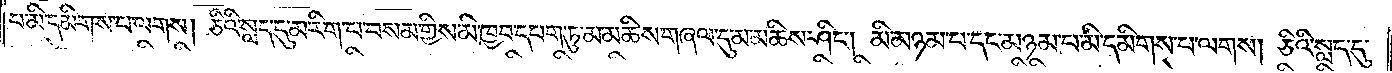པ་མི་དམིགས་པ་ལགས། ཅིའི་སླད་དུ་མ་རིག་པ་བསམ་གྱིས་མི་ཁྱབ་དཔག་ཏུ་མ་མཆིས་གཞལ་དུ་མ་མཆིས་ཤིང༌། མི་མཉམ་པ་དང་མཉམ་པ་མི་དམིགས་པ་ལགས། ཅིའི་སླད་དུ་
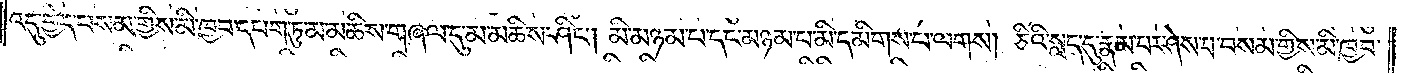འདུ་བྱེད་བསམ་གྱིས་མི་ཁྱབ་དཔག་ཏུ་མ་མཆིས་གཞལ་དུ་མ་མཆིས་ཤིང༌། མི་མཉམ་པ་དང་མཉམ་པ་མི་དམིགས་པ་ལགས། ཅིའི་སླད་དུ་རྣམ་པར་ཤེས་པ་བསམ་གྱིས་མི་ཁྱབ་
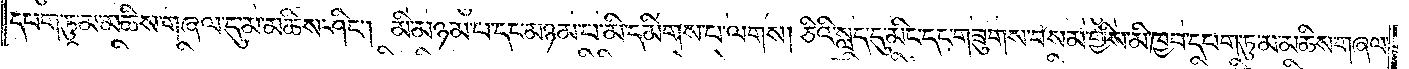དཔག་ཏུ་མ་མཆིས་གཞལ་དུ་མ་མཆིས་ཤིང༌། མི་མཉམ་པ་དང་མཉམ་པ་མི་དམིགས་པ་ལགས། ཅིའི་སླད་དུ་མིང་དང་གཟུགས་བསམ་གྱིས་མི་ཁྱབ་དཔག་ཏུ་མ་མཆིས་གཞལ་
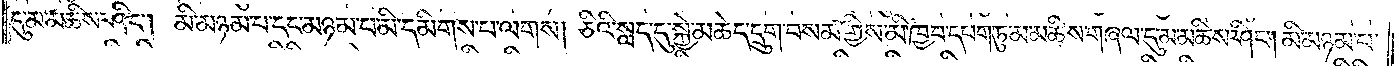དུ་མ་མཆིས་ཤིང༌། མི་མཉམ་པ་དང་མཉམ་པ་མི་དམིགས་པ་ལགས། ཅིའི་སླད་དུ་སྐྱེ་མཆེད་དྲུག་བསམ་གྱིས་མི་ཁྱབ་དཔག་ཏུ་མ་མཆིས་གཞལ་དུ་མ་མཆིས་ཤིང༌། མི་མཉམ་པ་
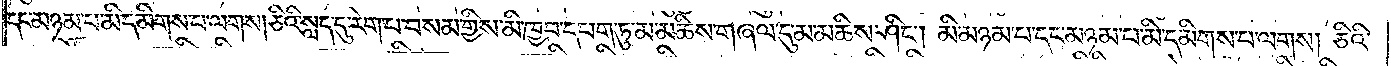དང་མཉམ་པ་མི་དམིགས་པ་ལགས། ཅིའི་སླད་དུ་རེག་པ་བསམ་གྱིས་མི་ཁྱབ་དཔག་ཏུ་མ་མཆིས་གཞལ་དུ་མ་མཆིས་ཤིང༌། མི་མཉམ་པ་དང་མཉམ་པ་མི་དམིགས་པ་ལགས། ཅིའི་
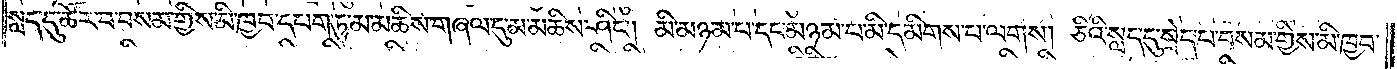སླད་དུ་ཚོར་བ་བསམ་གྱིས་མི་ཁྱབ་དཔག་ཏུ་མ་མཆིས་གཞལ་དུ་མ་མཆིས་ཤིང༌། མི་མཉམ་པ་དང་མཉམ་པ་མི་དམིགས་པ་ལགས། ཅིའི་སླད་དུ་སྲེད་པ་བསམ་གྱིས་མི་ཁྱབ་
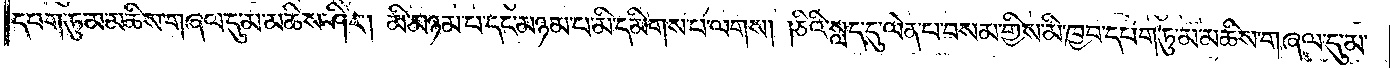དཔག་ཏུ་མ་མཆིས་གཞལ་དུ་མ་མཆིས་ཤིང༌། མི་མཉམ་པ་དང་མཉམ་པ་མི་དམིགས་པ་ལགས། ཅིའི་སླད་དུ་ལེན་པ་བསམ་གྱིས་མི་ཁྱབ་དཔག་ཏུ་མ་མཆིས་གཞལ་དུ་མ་
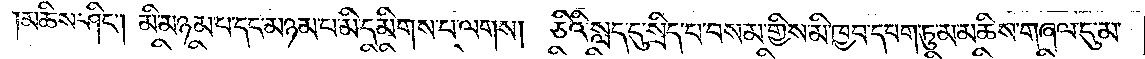མཆིས་ཤིང༌། མི་མཉམ་པ་དང་མཉམ་པ་མི་དམིགས་པ་ལགས། ཅིའི་སླད་དུ་སྲིད་པ་བསམ་གྱིས་མི་ཁྱབ་དཔག་ཏུ་མ་མཆིས་གཞལ་དུ་མ་
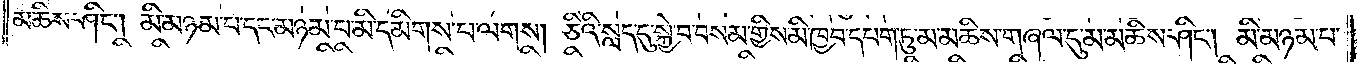མཆིས་ཤིང༌། མི་མཉམ་པ་དང་མཉམ་པ་མི་དམིགས་པ་ལགས། ཅིའི་སླད་དུ་སྐྱེ་བ་བསམ་གྱིས་མི་ཁྱབ་དཔག་ཏུ་མ་མཆིས་གཞལ་དུ་མ་མཆིས་ཤིང༌། མི་མཉམ་པ་
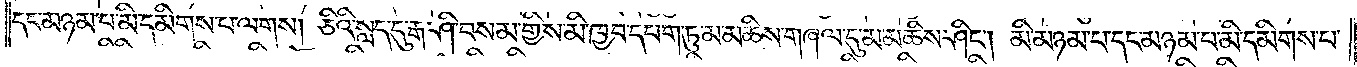དང་མཉམ་པ་མི་དམིགས་པ་ལགས། ཅིའི་སླད་དུ་རྒ་ཤི་བསམ་གྱིས་མི་ཁྱབ་དཔག་ཏུ་མ་མཆིས་གཞལ་དུ་མ་མཆིས་ཤིང༌། མི་མཉམ་པ་དང་མཉམ་པ་མི་དམིགས་པ་
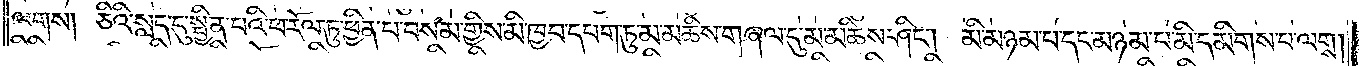ལགས། ཅིའི་སླད་དུ་སྦྱིན་པའི་ཕ་རོལ་ཏུ་ཕྱིན་པ་བསམ་གྱིས་མི་ཁྱབ་དཔག་ཏུ་མ་མཆིས་གཞལ་དུ་མ་མཆིས་ཤིང༌། མི་མཉམ་པ་དང་མཉམ་པ་མི་དམིགས་པ་ལགས།
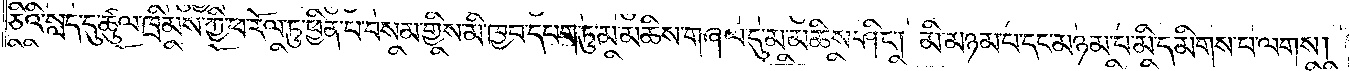ཅིའི་སླད་དུ་ཚུལ་ཁྲིམས་ཀྱི་ཕ་རོལ་ཏུ་ཕྱིན་པ་བསམ་གྱིས་མི་ཁྱབ་དཔག་ཏུ་མ་མཆིས་གཞལ་དུ་མ་མཆིས་ཤིང༌། མི་མཉམ་པ་དང་མཉམ་པ་མི་དམིགས་པ་ལགས།
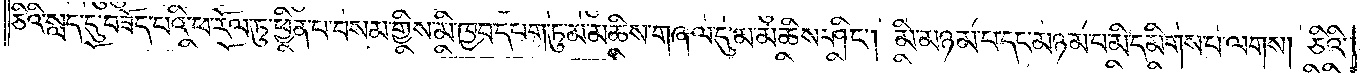ཅིའི་སླད་དུ་བཟོད་པའི་ཕ་རོལ་ཏུ་ཕྱིན་པ་བསམ་གྱིས་མི་ཁྱབ་དཔག་ཏུ་མ་མཆིས་གཞལ་དུ་མ་མཆིས་ཤིང༌། མི་མཉམ་པ་དང་མཉམ་པ་མི་དམིགས་པ་ལགས། ཅིའི་
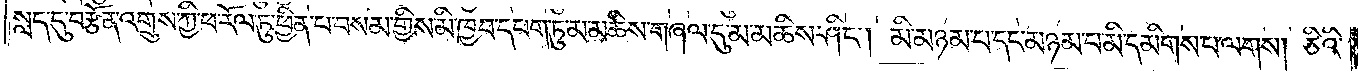སླད་དུ་བརྩོན་འགྲུས་ཀྱི་ཕ་རོལ་ཏུ་ཕྱིན་པ་བསམ་གྱིས་མི་ཁྱབ་དཔག་ཏུ་མ་མཆིས་གཞལ་དུ་མ་མཆིས་ཤིང༌། མི་མཉམ་པ་དང་མཉམ་པ་མི་དམིགས་པ་ལགས། ཅིའི་
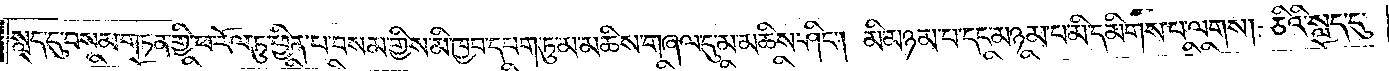སླད་དུ་བསམ་གཏན་གྱི་ཕ་རོལ་ཏུ་ཕྱིན་པ་བསམ་གྱིས་མི་ཁྱབ་དཔག་ཏུ་མ་མཆིས་གཞལ་དུ་མ་མཆིས་ཤིང༌། མི་མཉམ་པ་དང་མཉམ་པ་མི་དམིགས་པ་ལགས། ཅིའི་སླད་དུ་
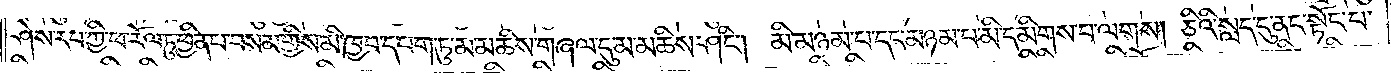ཤེས་རབ་ཀྱི་ཕ་རོལ་ཏུ་ཕྱིན་པ་བསམ་གྱིས་མི་ཁྱབ་དཔག་ཏུ་མ་མཆིས་གཞལ་དུ་མ་མཆིས་ཤིང༌། མི་མཉམ་པ་དང་མཉམ་པ་མི་དམིགས་པ་ལགས། ཅིའི་སླད་དུ་ནང་སྟོང་པ་
